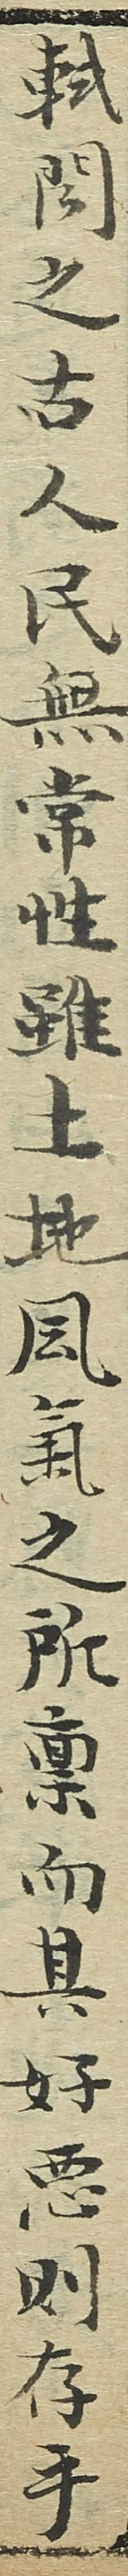軾聞之古人民無常性雖土地風氣之所稟而其好惡則存乎
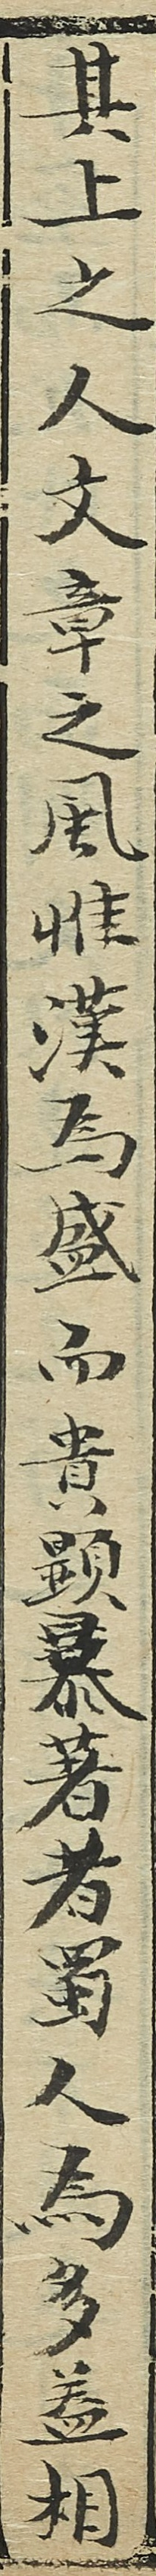其上之人文章之風惟漢為盛而貴顯暴著者蜀人為多蓋相
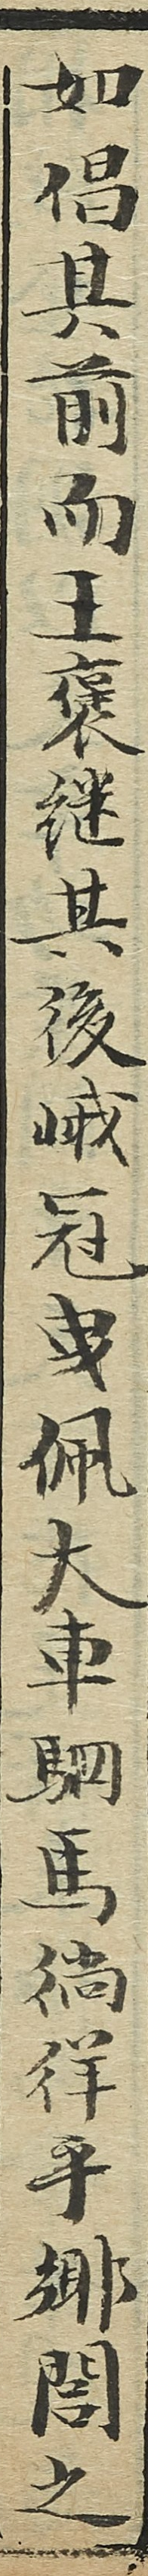如倡其前而王褒繼其後峩冠曳佩大車駟馬徜徉乎鄉閭之
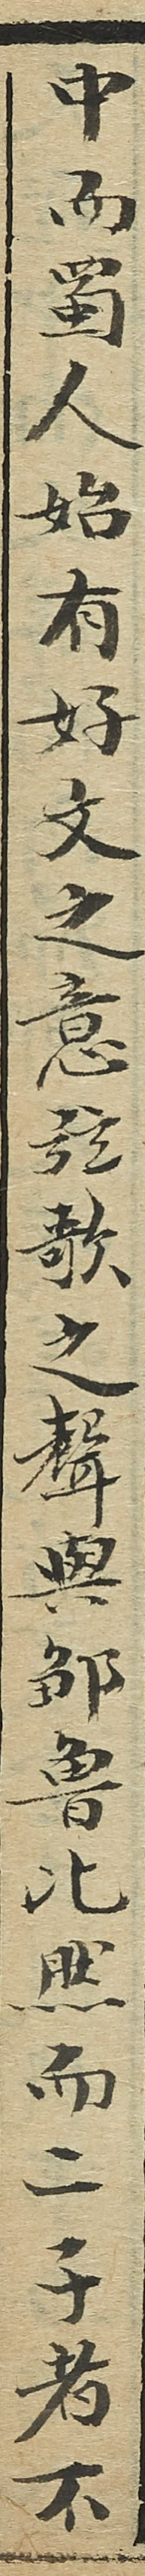中而蜀人始有好文之意弦歌之聲與鄒魯比然而二子者不
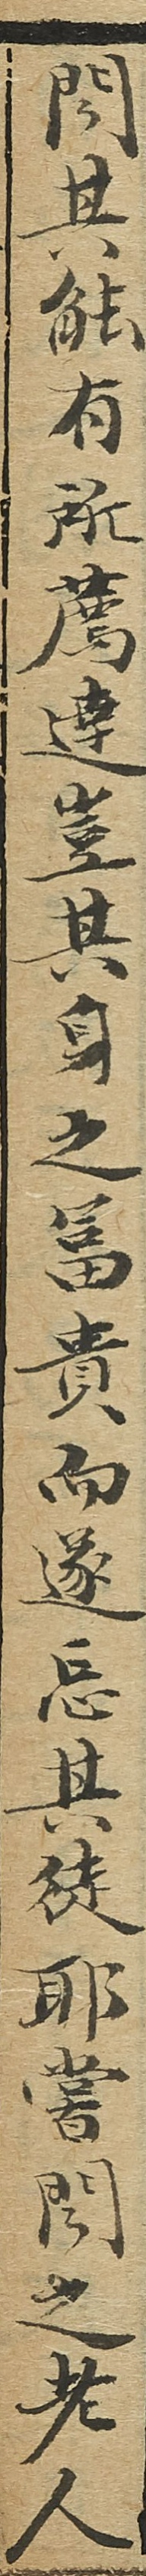聞其能有所薦達豈其身之富貴而遂忘其徒耶嘗聞之老人
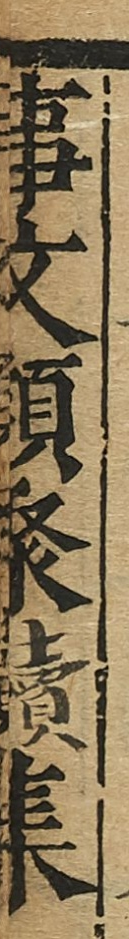事文類聚續集
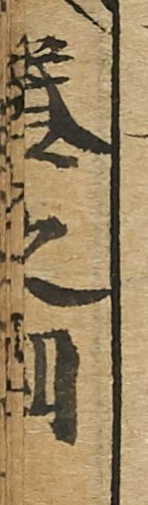卷之四
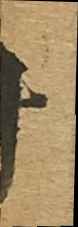十
